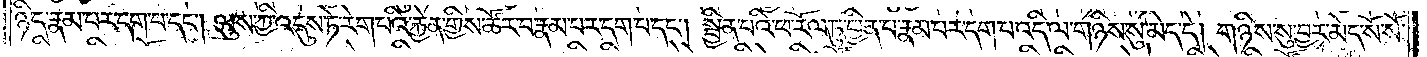ཉིད་རྣམ་པར་དག་པ་དང༌། ལུས་ཀྱི་འདུས་ཏེ་རེག་པའི་རྐྱེན་གྱིས་ཚོར་བ་རྣམ་པར་དག་པ་དང༌། སྦྱིན་པའི་ཕ་རོལ་ཏུ་ཕྱིན་པ་རྣམ་པར་དག་པ་འདི་ལ་གཉིས་སུ་མེད་དེ། གཉིས་སུ་བྱར་མེད་སོ་སོ་
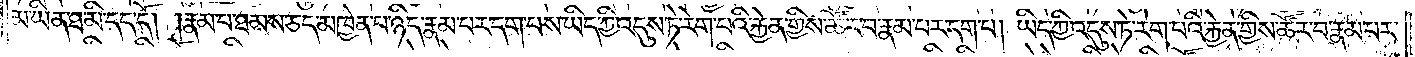མ་ཡིན་ཐ་མི་དད་དོ། །རྣམ་པ་ཐམས་ཅད་མཁྱེན་པ་ཉིད་རྣམ་པར་དག་པས་ཡིད་ཀྱི་འདུས་ཏེ་རེག་པའི་རྐྱེན་གྱིས་ཚོར་བ་རྣམ་པར་དག་པ། ཡིད་ཀྱི་འདུས་ཏེ་རེག་པའི་རྐྱེན་གྱིས་ཚོར་བ་རྣམ་པར་
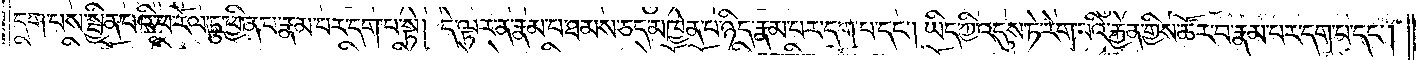དག་པས་སྦྱིན་པའི་ཕ་རོལ་ཏུ་ཕྱིན་པ་རྣམ་པར་དག་པ་སྟེ། དེ་ལྟར་ན་རྣམ་པ་ཐམས་ཅད་མཁྱེན་པ་ཉིད་རྣམ་པར་དག་པ་དང༌། ཡིད་ཀྱི་འདུས་ཏེ་རེག་པའི་རྐྱེན་གྱིས་ཚོར་བ་རྣམ་པར་དག་པ་དང༌།
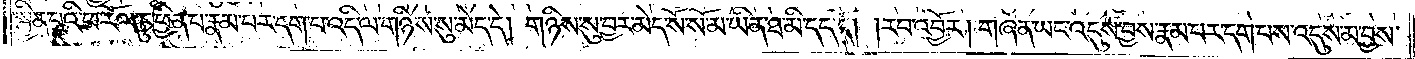སྦྱིན་པའི་ཕ་རོལ་ཏུ་ཕྱིན་པ་རྣམ་པར་དག་པ་འདི་ལ་གཉིས་སུ་མེད་དེ། གཉིས་སུ་བྱར་མེད་སོ་སོ་མ་ཡིན་ཐ་མི་དད་དོ། །རབ་འབྱོར། གཞན་ཡང་འདུས་བྱས་རྣམ་པར་དག་པས་འདུས་མ་བྱས་
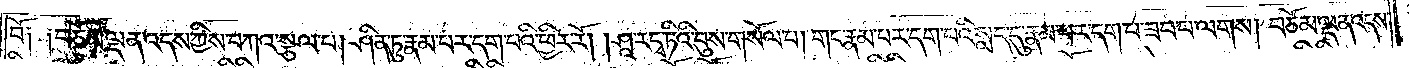བོ༑ ༑བཅོམ་ལྡན་འདས་ཀྱིས་བཀའ་སྩལ་པ། ཤིན་ཏུ་རྣམ་པར་དག་པའི་ཕྱིར་རོ། །ཤཱ་ར་དྭ་ཏིའི་བུས་གསོལ་པ། གང་རྣམ་པར་དག་པའི་སླད་དུ་རྣམ་པར་དག་པ་ཟབ་པ་ལགས། བཅོམ་ལྡན་འདས་
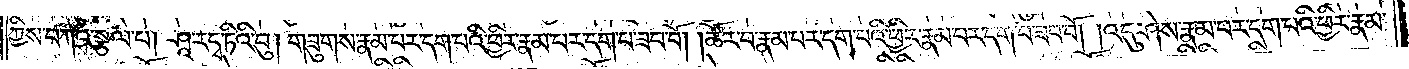ཀྱིས་བཀའ་སྩལ་པ། ཤཱ་ར་དྭ་ཏིའི་བུ། གཟུགས་རྣམ་པར་དག་པའི་ཕྱིར་རྣམ་པར་དག་པ་ཟབ་བོ། །ཚོར་བ་རྣམ་པར་དག་པའི་ཕྱིར་རྣམ་པར་དག་པ་ཟབ་བོ། །འདུ་ཤེས་རྣམ་པར་དག་པའི་ཕྱིར་རྣམ་
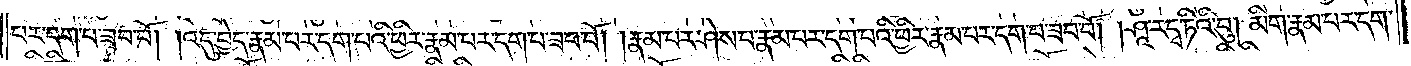པར་དག་པ་ཟབ་བོ། །འདུ་བྱེད་རྣམ་པར་དག་པའི་ཕྱིར་རྣམ་པར་དག་པ་ཟབ་བོ། །རྣམ་པར་ཤེས་པ་རྣམ་པར་དག་པའི་ཕྱིར་རྣམ་པར་དག་པ་ཟབ་བོ། །ཤཱ་ར་དྭ་ཏིའི་བུ། མིག་རྣམ་པར་དག་
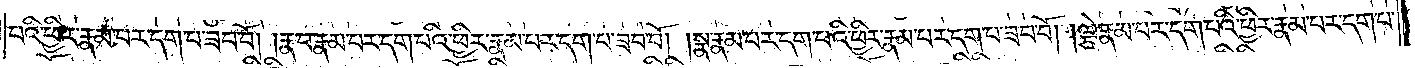པའི་ཕྱིར་རྣམ་པར་དག་པ་ཟབ་བོ། །རྣ་བ་རྣམ་པར་དག་པའི་ཕྱིར་རྣམ་པར་དག་པ་ཟབ་བོ། །སྣ་རྣམ་པར་དག་པའི་ཕྱིར་རྣམ་པར་དག་པ་ཟབ་བོ། །ལྕེ་རྣམ་པར་དག་པའི་ཕྱིར་རྣམ་པར་དག་པ་
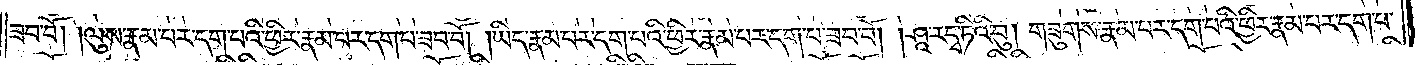ཟབ་བོ། །ལུས་རྣམ་པར་དག་པའི་ཕྱིར་རྣམ་པར་དག་པ་ཟབ་བོ། །ཡིད་རྣམ་པར་དག་པའི་ཕྱིར་རྣམ་པར་དག་པ་ཟབ་བོ། །ཤཱ་ར་དྭ་ཏིའི་བུ། གཟུགས་རྣམ་པར་དག་པའི་ཕྱིར་རྣམ་པར་དག་པ་
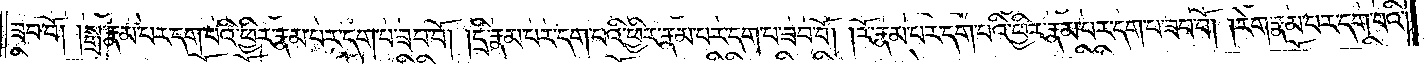ཟབ་བོ། །སྒྲ་རྣམ་པར་དག་པའི་ཕྱིར་རྣམ་པར་དག་པ་ཟབ་བོ། །དྲི་རྣམ་པར་དག་པའི་ཕྱིར་རྣམ་པར་དག་པ་ཟབ་བོ། །རོ་རྣམ་པར་དག་པའི་ཕྱིར་རྣམ་པར་དག་པ་ཟབ་བོ། །རེག་རྣམ་པར་དག་པའི་
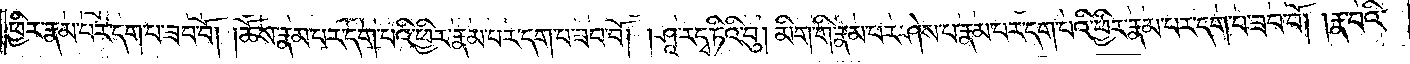ཕྱིར་རྣམ་པར་དག་པ་ཟབ་བོ། །ཆོས་རྣམ་པར་དག་པའི་ཕྱིར་རྣམ་པར་དག་པ་ཟབ་བོ། །ཤཱ་ར་དྭ་ཏིའི་བུ། མིག་གི་རྣམ་པར་ཤེས་པ་རྣམ་པར་དག་པའི་ཕྱིར་རྣམ་པར་དག་པ་ཟབ་བོ། །རྣ་བའི་
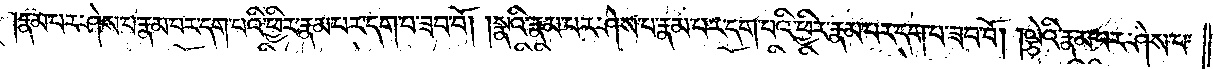རྣམ་པར་ཤེས་པ་རྣམ་པར་དག་པའི་ཕྱིར་རྣམ་པར་དག་པ་ཟབ་བོ། །སྣའི་རྣམ་པར་ཤེས་པ་རྣམ་པར་དག་པའི་ཕྱིར་རྣམ་པར་དག་པ་ཟབ་བོ། །ལྕེའི་རྣམ་པར་ཤེས་པ་
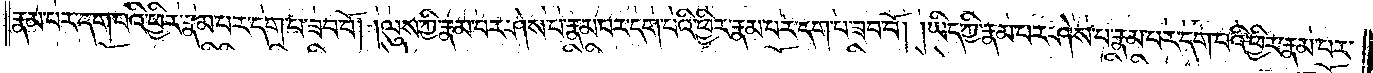རྣམ་པར་དག་པའི་ཕྱིར་རྣམ་པར་དག་པ་ཟབ་བོ། །ལུས་ཀྱི་རྣམ་པར་ཤེས་པ་རྣམ་པར་དག་པའི་ཕྱིར་རྣམ་པར་དག་པ་ཟབ་བོ། །ཡིད་ཀྱི་རྣམ་པར་ཤེས་པ་རྣམ་པར་དག་པའི་ཕྱིར་རྣམ་པར་
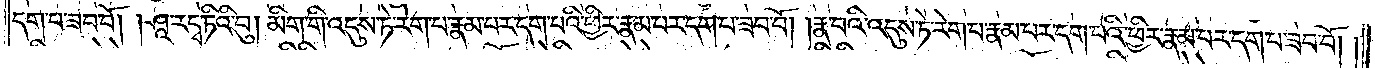དག་པ་ཟབ་བོ། །ཤཱ་ར་དྭ་ཏིའི་བུ། མིག་གི་འདུས་ཏེ་རེག་པ་རྣམ་པར་དག་པའི་ཕྱིར་རྣམ་པར་དག་པ་ཟབ་བོ། །རྣ་བའི་འདུས་ཏེ་རེག་པ་རྣམ་པར་དག་པའི་ཕྱིར་རྣམ་པར་དག་པ་ཟབ་བོ། །
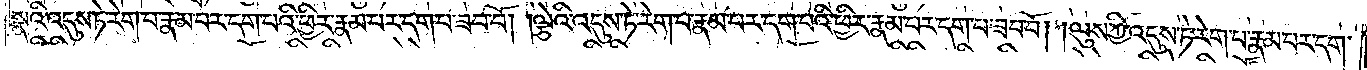སྣའི་འདུས་ཏེ་རེག་པ་རྣམ་པར་དག་པའི་ཕྱིར་རྣམ་པར་དག་པ་ཟབ་བོ། །ལྕེའི་འདུས་ཏེ་རེག་པ་རྣམ་པར་དག་པའི་ཕྱིར་རྣམ་པར་དག་པ་ཟབ་བོ། །ལུས་ཀྱི་འདུས་ཏེ་རེག་པ་རྣམ་པར་དག་
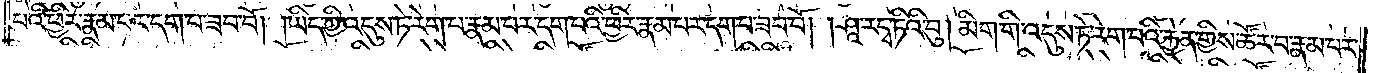པའི་ཕྱིར་རྣམ་པར་དག་པ་ཟབ་བོ། །ཡིད་ཀྱི་འདུས་ཏེ་རེག་པ་རྣམ་པར་དག་པའི་ཕྱིར་རྣམ་པར་དག་པ་ཟབ་བོ། །ཤཱ་ར་དྭ་ཏིའི་བུ། མིག་གི་འདུས་ཏེ་རེག་པའི་རྐྱེན་གྱིས་ཚོར་བ་རྣམ་པར་
